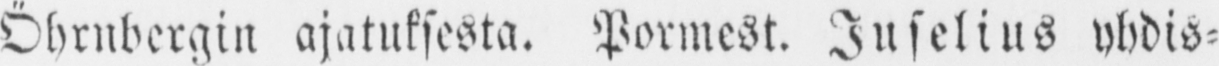Öhrnbergin ajatuksesta. Pormest. Juselius yhdis-
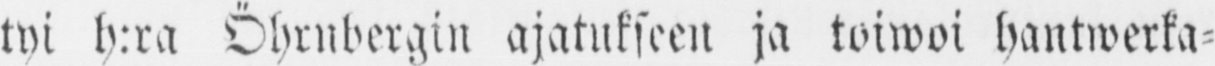tyi h:ra Öhrnbergin ajatukseen ja toiwoi hantwerka-
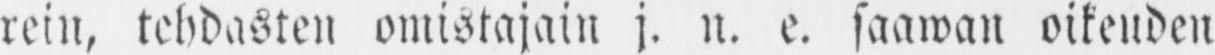rein, tehdasten omistajain j. n. e. saawan oikeuden
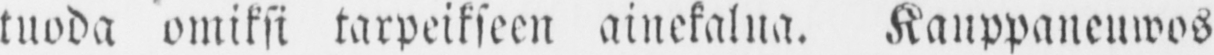tuoda omiksi tarpeikseen ainekalua. Kauppaneuwos
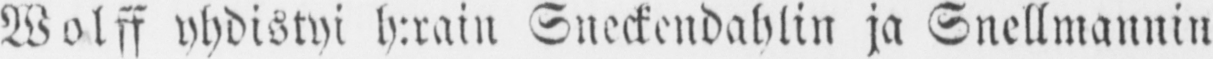Wolff yhdistyi h:rain Sneckendahlin ja Snellmannin
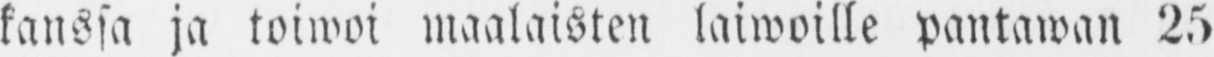kanssa ja toiwoi maalaisten laiwoille pantawan 25
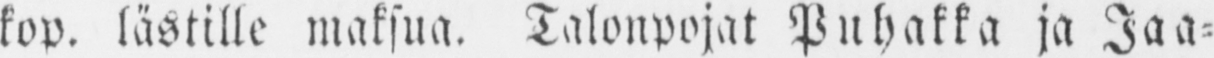kop. lästille maksua. Talonpojat Puhakka ja Jaa-
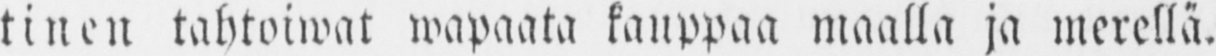tinen tahtoiwat wapaata kauppaa maalla ja merellä.
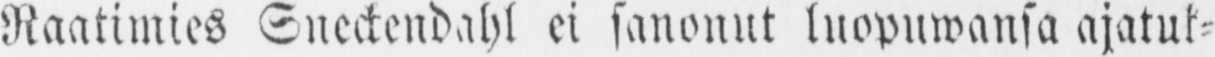Raatimies Sneckendahl ei sanonut luopuwansa ajatuk-
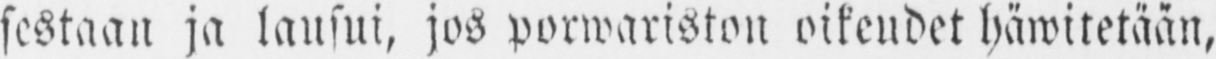sestaan ja lausui, jos porwariston oikeudet häwitetään,
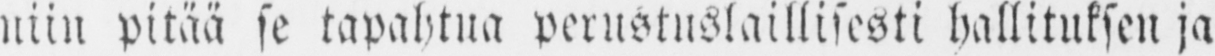niin pitää se tapahtua perustuslaillisesti hallituksen ja
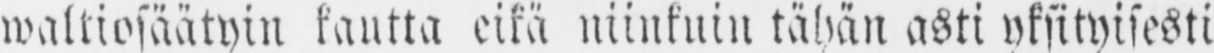waltiosäätyin kautta eikä niinkuin tähän asti yksityisesti
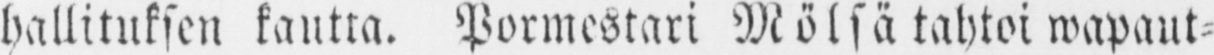hallituksen kautta. Pormestari Mölsä tahtoi wapaut-
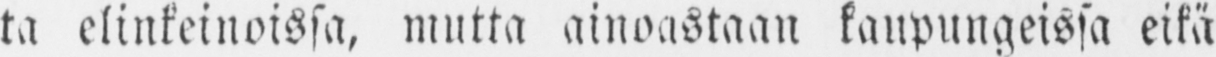ta elinkeinoissa, mutta ainoastaan kaupungeissa eikä
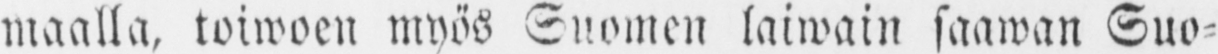maalla, toiwoen myös Suomen laiwain saawan Suo-
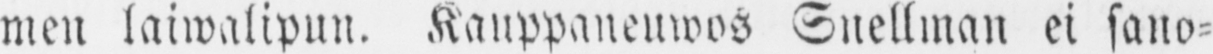men laiwalipun. Kauppaneuwos Snellman ei sano-
